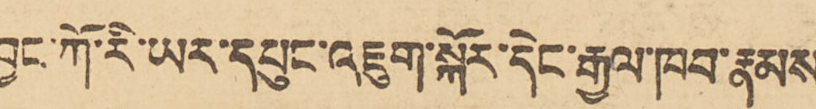བྱང་ཀོ་རི་ཡར་དཔུང་འཇུག་སྐོར་དེང་རྒྱལ་ཁབ་རྣམས་
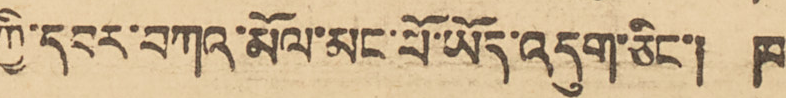ཀྱི་དབར་བཀའ་མོལ་མང་པོ་ཡོད་འདུག་ཅིང་། ཁ་
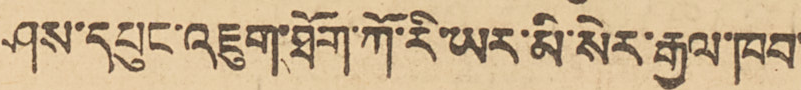ཤས་དཔུང་འཇུག་ཐོག་ཀོ་རི་ཡར་མི་སེར་རྒྱལ་ཁབ་
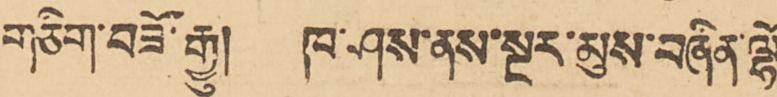གཅིག་བཟོ་རྒྱུ། ཁ་ཤས་ནས་སྔར་མུས་བཞིན་ལྷོ་
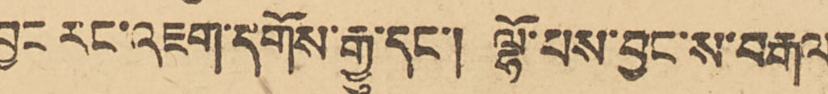བྱང རང་འཇག་དགོས་རྒྱུ་དང་། ལྷོ་པས་བྱང་ས་བརྒལ
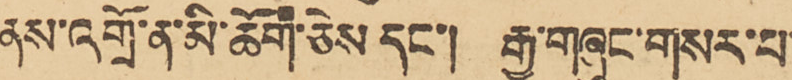ནས་འགྲོ་ན་མི་ཆོག་ཅེས དང་། རྒྱ་གཞུང་གསར་པ་
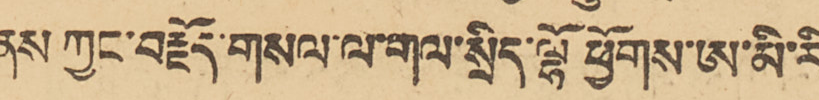ནས ཀྱང་བརྗོད་གསལ་ལ་གལ་སྲིད་ལྷོ ཕྱོགས་ཨ་མི་རི་
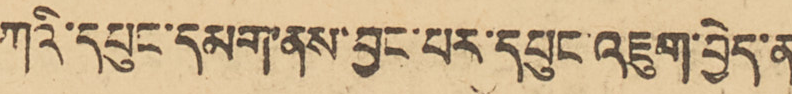ཀའི་དཔུང་དམག་ནས་བྱང་པར་དཔུང་འཇུག་བྱེད་ན་
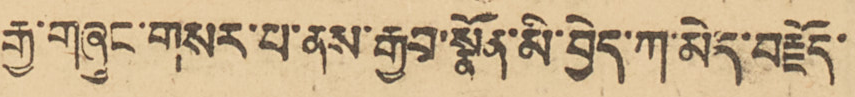རྒྱ་གཞུང་གསར་པ་ནས་རྒྱབ་སྣོན་མི་བྱེད་ཀ་མེད་བརྗོད་
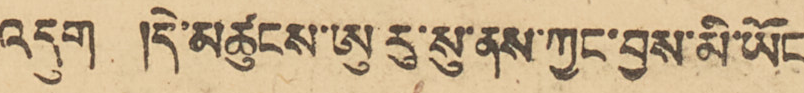འདུག །དེ་མཚུངས་ཨུ་རུ་སུ་ནས་ཀྱང་བྱས་མི་ཡོང་
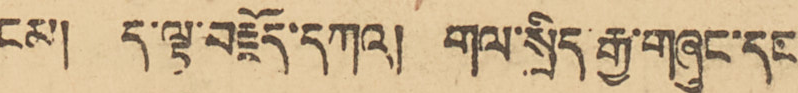ངམ། ད་ལྟ་བརྗོད་དཀའ། གལ་སྲིད་རྒྱ་གཞུང་དང་
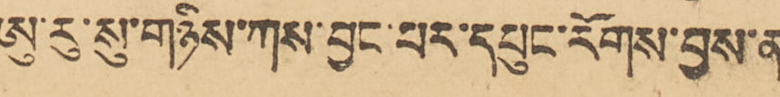ཨུ་རུ་སུ་གཉིས་ཀས་བྱང་པར་དཔུང་རོགས་བྱས་ན་
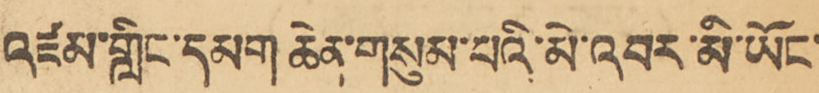འཛམ་གླིང་དམག ཆེན་གསུམ་པའི་མེ་འབར་མི་ཡོང་
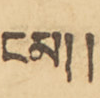ངམ༎
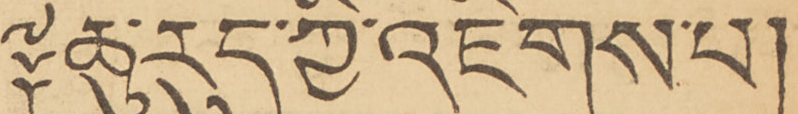༈ ཆུ་རུད་ཀྱི་འཇིགས་པ།
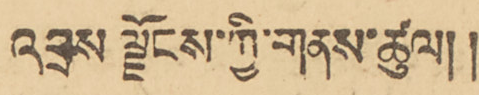འབྲས ལྗོངས་ཀྱི་གནས་ཚུལ།།
